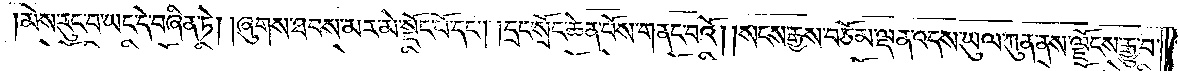མེས་རུང་བ་ཡང་དེ་བཞིན་ཏེ། །ཞུགས་ཐབས་མར་མེ་སྡོང་པོ་དང༌། དྲང་སྲོང་ཆེན་པོས་གནང་བའོ། །སངས་རྒྱས་བཅོམ་ལྡན་འདས་ཡུལ་ཀུན་ནས་ལྗོངས་རྒྱུ་བ་
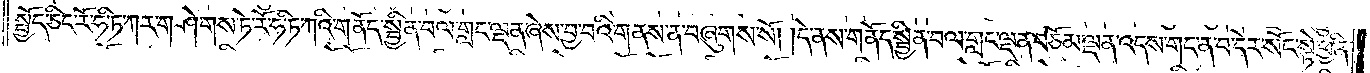སྤྱོད་ཅིང་རོ་ཧི་ཏ་ཀར་གཤེགས་ཏེ་རོ་ཧ་ཏི་ཀའི་གནོད་སྦྱིན་བལ་གླང་ལྡན་ཞེས་བྱ་བའི་གནས་ན་བཞུགས་སོ། །དེ་ནས་གནོད་སྦྱིན་བལ་གླང་ལྡན་བཅོམ་ལྡན་འདས་གང་ན་བ་དེར་སོང་སྟེ་ཕྱིན་
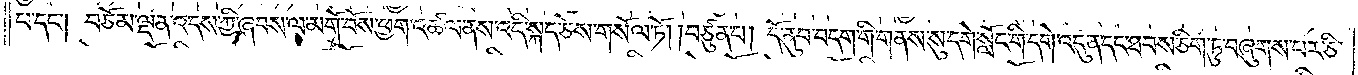པ་དང༌། བཅོམ་ལྡན་འདས་ཀྱི་ཞབས་ལ་མགོ་བོས་ཕྱག་འཚལ་ནས་འདི་སྐད་ཅེས་གསོལ་ཏོ། །བཙུན་པ། དོ་ནུབ་བདག་གི་གནས་སུ་དགེ་སློང་གི་དགེ་འདུན་དང་ཐབས་ཅིག་ཏུ་བཞུགས་པར་ཅི་
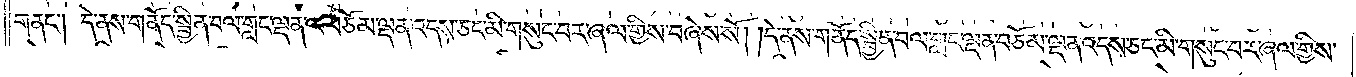གནང༌། དེ་ནས་གནོད་སྦྱིན་བལ་གླང་ལྡན་ལ་བཅོམ་ལྡན་འདས་ཅང་མི་གསུང་བར་ཞལ་གྱིས་བཞེས་སོ། །དེ་ནས་གནོད་སྦྱིན་བལ་གླང་ལྡན་བཅོམ་ལྡན་འདས་ཅང་མི་གསུང་བར་ཞལ་གྱིས་
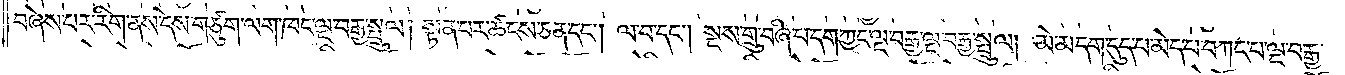བཞེས་པར་རིག་ནས་དེས་གཙུག་ལག་ཁང་ལྔ་བརྒྱ་སྤྲུལ། སྟན་པར་ཚངས་ཅན་དང༌། ལ་བ་དང༌། སྔས་གྲུ་བཞི་པ་དག་ཀྱང་ལྔ་བརྒྱ་ལྔ་བརྒྱ་སྤྲུལ། མེ་མདག་དུད་པ་མེད་པ་བཀང་པ་ལྔ་བརྒྱ་
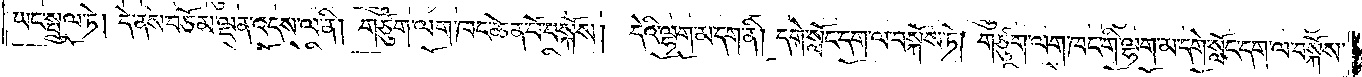ཡང་སྤྲུལ་ཏེ། དེ་ནས་བཅོམ་ལྡན་འདས་ལ་ནི། གཙུག་ལག་ཁང་ཆེན་པོ་བསྐོས། དེའི་ལྷག་མ་དག་ནི། དགེ་སློང་དག་ལ་བསྐོས་ཏེ། གཙུག་ལག་ཁང་གི་ལྷག་མ་དགེ་སློང་དག་ལ་བསྐོས་
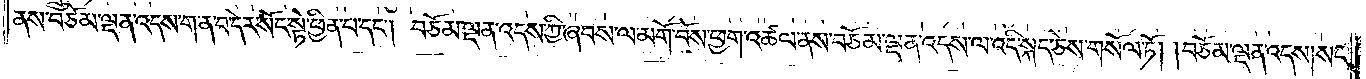ནས་བཅོམ་ལྡན་འདས་ག་ན་བ་དེར་སོང་སྟེ་ཕྱིན་པ་དང༌། བཅོམ་ལྡན་འདས་ཀྱི་ཞབས་ལ་མགོ་བོས་ཕྱག་འཚལ་ནས་བཅོམ་ལྡན་འདས་ལ་འདི་སྐད་ཅེས་གསོལ་ཏོ། །བཅོམ་ལྡན་འདས། སང་
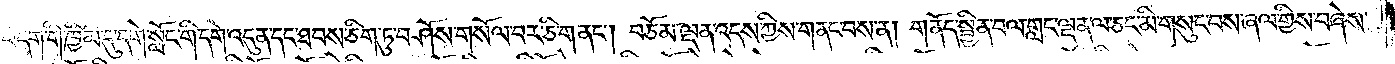བདག་གི་ཁྱིམ་དུ་དགེ་སློང་གི་དགུ་འདུན་དང་ཐབས་ཅིག་ཏུ་བཤོས་གསོལ་བར་ཅིག་ནང༌། བཅོམ་ལྡན་འདས་ཀྱིས་གནང་བས་ན། གནོད་སྦྱིན་བལ་གླང་ལྡན་ལ་ཅང་མི་གསུང་བས་ཞལ་གྱིས་བཞེས་
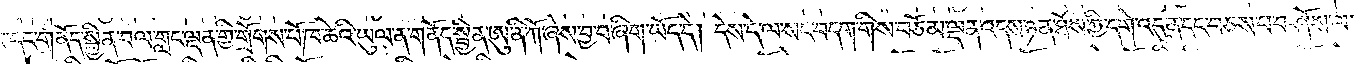པ་དང་གནོད་སྦྱིན་བལ་གླང་ལྡན་གྱི་གྲོགས་པོ་ཁ་ཆེའི་ཡུལ་ན་གནོད་སྦྱིན་ཨུ་ནི་ཀོ་ཞེས་བྱ་བ་ཞིག་ཡོད་དེ། དེས་དེ་ལ་སང་བདག་གིས་བཅོམ་ལྡན་འདས་ཉན་ཐོས་ཀྱི་དགེ་འདུན་དང་བཅས་པ་བཤོས་ལ་
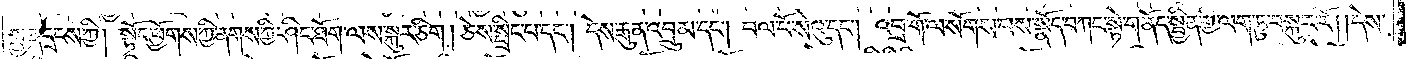སྤྱན་དྲངས་ཀྱི། སྟོང་ཕྱོགས་ཀྱི་ནགས་ཀྱི་ཤིང་ཐོག་ལས་སྐུར་ཅིག །ཅེས་སྤྲིང་པ་དང༌། དེས་རྒུན་འབྲུམ་དང༌། བལ་པོ་སེའུ་དང༌། འབྲ་གོ་ལ་སོགས་པས་སྣོད་བཀང་སྟེ་གནོད་སྦྱིན་གྱི་ལག་ཏུ་བསྐུར་རོ། །དེས་
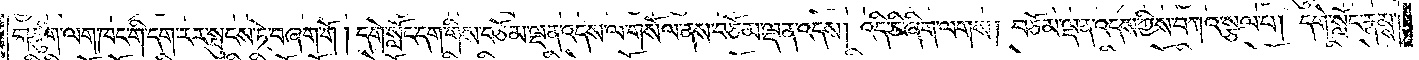གཙུག་ལག་ཁང་གི་དག་རར་སྤུངས་ཏེ་བཞག་གོ། །དགེ་སློང་དག་གིས་བཅོམ་ལྡན་འདས་ལ་གསོལ་ནས་བཅོམ་ལྡན་འདས། འདི་ཅི་ཞིག་ལགས། བཅོམ་ལྡན་འདས་ཀྱིས་བཀའ་སྩལ་པ། དགེ་སློང་རྣམས་
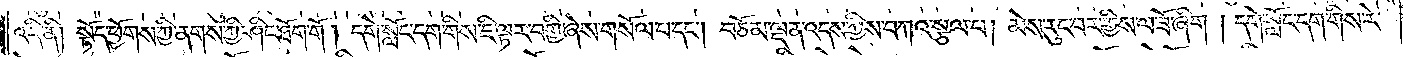འདི་ནི། སྟོད་ཕྱོགས་ཀྱི་ནགས་ཀྱི་ཤིང་ཐོག་གོ །དགེ་སློང་དག་གིས་ཇི་ལྟར་བགྱི་ཞེས་གསོལ་པ་དང༌། བཅོམ་ལྡན་འདས་ཀྱིས་བཀའ་སྩལ་པ། མེས་རུང་བར་གྱིས་ལ་ཟོ་ཞིག །དགེ་སློང་དག་གིས་རེ་
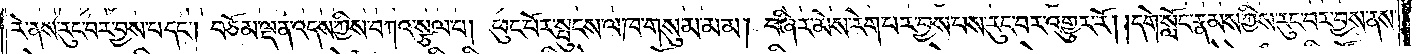རེ་ནས་རུང་བར་བྱས་པ་དང༌། བཅོམ་ལྡན་འདས་ཀྱིས་བཀའ་སྩལ་པ། ཕུང་པོར་སྤུངས་ལ་ཁ་གསུམ་མམ། བཞིར་མེས་རེག་པར་བྱས་པས་རུང་བར་འགྱུར་རོ། །དགེ་སློང་རྣམས་ཀྱིས་རུང་བར་བྱས་ནས་
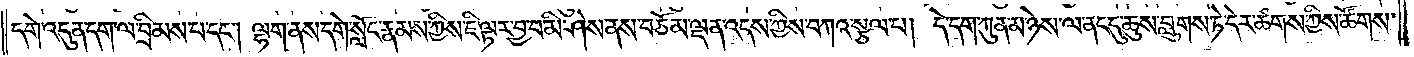དགེ་འདུན་དག་ལ་བྲིམས་པ་དང༌། ལྷག་ནས་དགེ་སློང་རྣམས་ཀྱིས་ཇི་ལྟར་བྱ་བ་མི་ཤེས་ནས་བཅོམ་ལྡན་འདས་ཀྱིས་བཀའ་སྩལ་པ། དེ་དག་ཀུན་མ་ཉེས་ལ་ནང་དུ་ཆུས་བླུགས་ཏེ་དེར་ཚགས་ཀྱིས་ཚོགས་
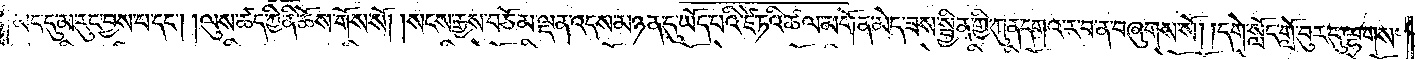མང་དུ་མ་རུང་བྱས་པ་དང༌། ལུས་ཚད་ཀྱི་ནི་ཆོས་གོས་སོ། །སངས་རྒྱས་བཅོམ་ལྡན་འདས་མཉན་དུ་ཡོད་པའི་ཛེ་ཏའི་ཚལ་མགོན་མེད་ཟས་སྦྱིན་གྱི་ཀུན་དགའ་ར་བ་ན་བཞུགས་སོ། །དགེ་སློང་གློ་བུར་དུ་ལྷགས་
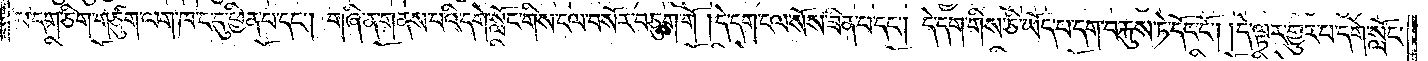པ་དག་ཅིག་གཙུག་ལག་ཁང་དུ་ཕྱིན་པ་དང༌། གཞི་ན་གནས་པའི་དགེ་སློང་གིས་ངལ་བསོར་བཅུག་གོ །དེ་དག་ངལ་སོས་ཟིན་པ་དང༌། དེ་དག་གིས་ཅི་ཡོད་པ་དག་བརྐུས་ཏེ་དོང་ངོ༌། །དེ་ལྟར་གྱུར་པ་དགེ་སློང་
